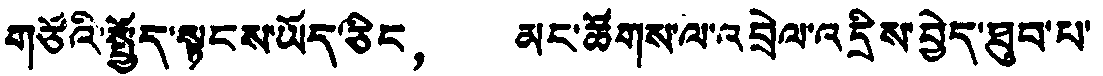གཙོའི་སྤྱོད་སྟངས་ཡོད་ཅིང， མང་ཚོགས་ལ་འབྲེལ་འདྲིས་བྱེད་ཐུབ་པ་
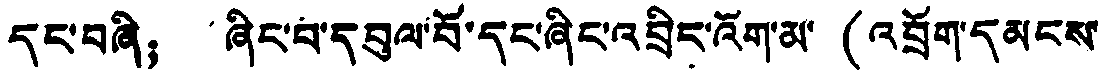དང་བཞི； ཞིང་བ་དབུལ་བོ་དང་ཞིང་འབྲིང་འོག་མ་ (འབྲོག་དམངས་
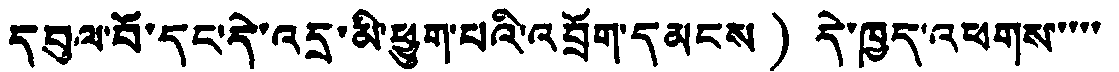དབུལ་བ་དང་དུ་འདྲ་མ་ཕྱུག་པའི་འབྲུག་དམངས ) དེ་ཁྱད་འཕགས་་་་་
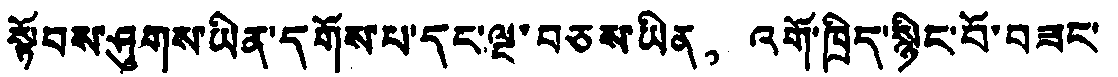སྟོབས་ཤུགས་ཡིན་དགོས་པ་དང་ལྔ་བཅས་ཡིན， འགོ་ཁྲིད་སྙིང་པོ་བཟང་
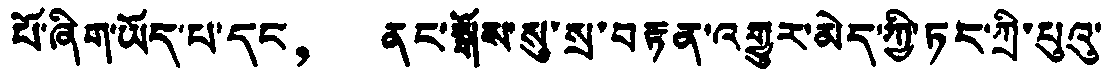པོ་ཞིག་ཡོད་པ་དང， ནང་སྒོས་སུ་སྲ་བརྟན་འགྱུར་མེད་ཀྱི་ཏང་ཀྲི་པུའུ་
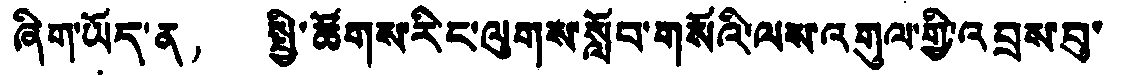ཞིག་ཡོད་ན， སྤྱི་ཚོགས་རིང་ལུགས་སློབ་གསོའི་ལས་འགུལ་གྱི་འབྲས་བུ་
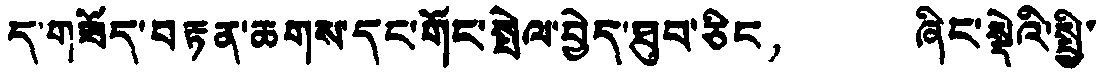ད་གཟོད་བརྟན་ཆགས་དང་གོང་སྤེལ་བྱེད་ཐུབ་ཅིང， ཞིང་སྡེའི་སྤྱི་
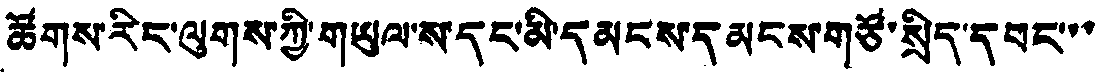ཚོགས་རིང་ལུགས་ཀྱི་གཡུལ་ས་དང་མི་དམངས་དམངས་གཙོ་སྲིད་དབང་་་
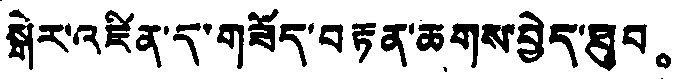སྒེར་འཛིན་ད་གཟོད་བརྟན་ཆགས་བྱེད་ཐུབ。
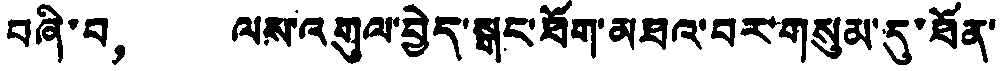བཞི་བ， ལས་འགུལ་བྱེད་སྒང་ཐོག་མཐའ་བར་གསུམ་དུ་ཐོན་
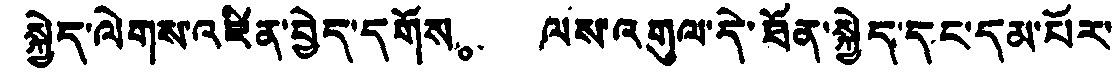སྐྱེད་ལེགས་འཛིན་བྱེད་དགོས。 ལས་འགུལ་དེ་ཐོན་སྐྱེད་དང་དམ་པོར་
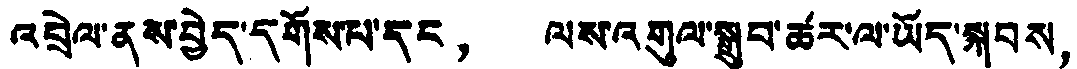འབྲེལ་ནས་བྱེད་དགོས་པ་དང， ལས་འགུལ་སྒྲུབ་ཚར་ལ་ཡོད་སྐབས，
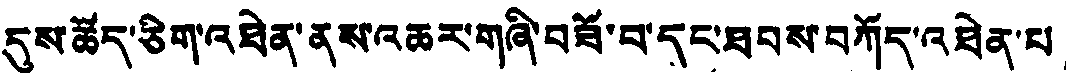དུས་ཚོད་ཅིག་འཐེན་ནས་འཆར་གཞི་བཟོ་བ་དང་ཐབས་བཀོད་འཐེན་པ，
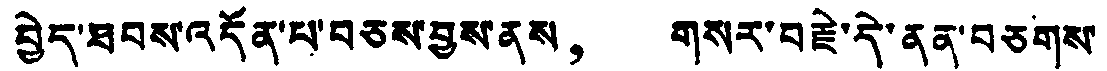བྱེད་ཐབས་འདོན་པ་བཅས་བྱས་ནས， གསར་བརྗེ་དེ་ནན་བཅགས་
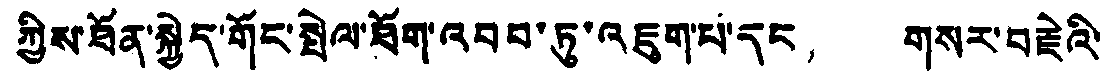ཀྱིས་ཐོན་སྐྱེད་གོང་སྤེལ་ཐོག་འབབ་ཏུ་འཇུག་པ་དང， གསར་བརྗེའི་
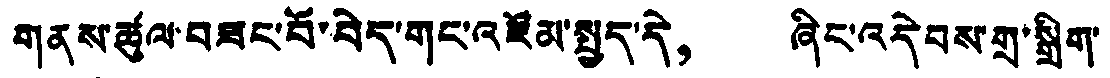གནས་ཚུལ་བཟང་པོ་བེད་གང་འཛོམ་སྤྱད་དེ， ཞིང་འདེབས་གྲ་སྒྲིག་
